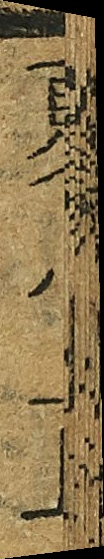夏小正
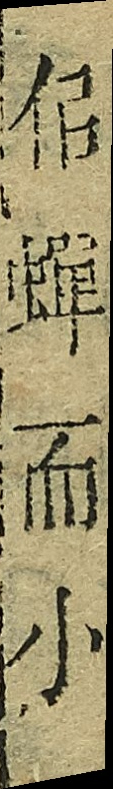佀蝉而小
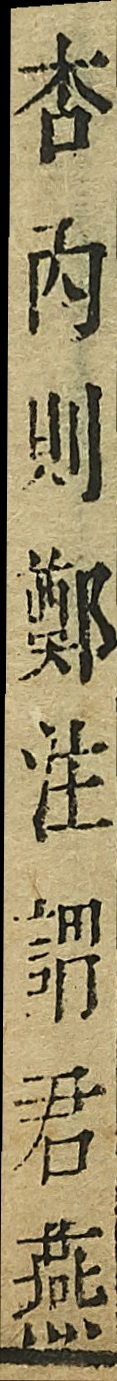杏内则鄭註謂君燕
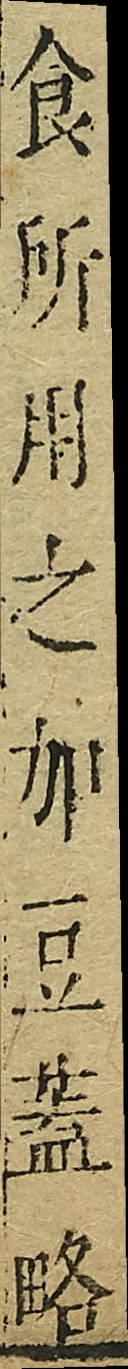食所用之加豆蓋略
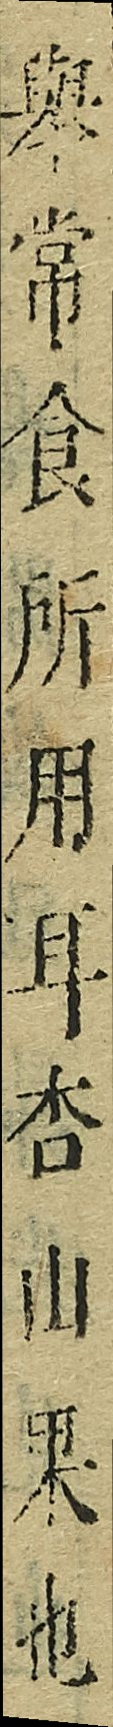舉常食所用耳杏由果也
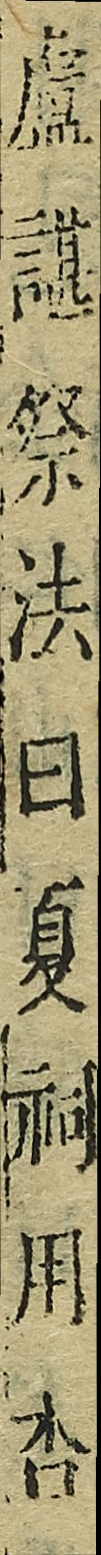盧諶祭法曰夏祠用杏
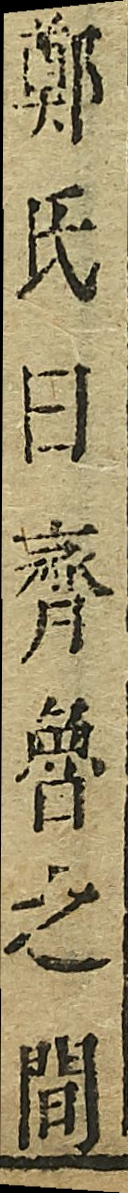鄭氏曰齊魯之間
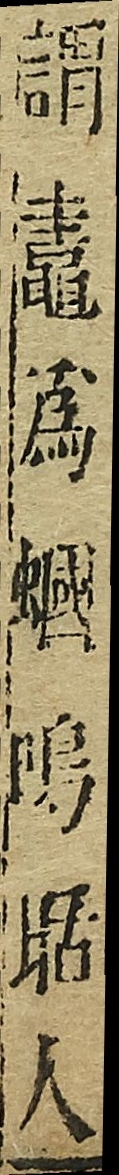謂鼃為蟈鳴聒人
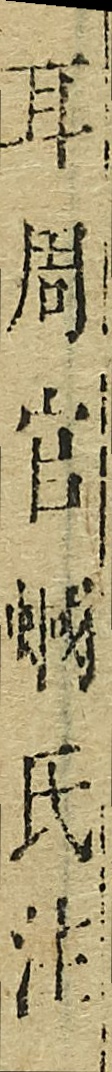耳周官蟈氏注
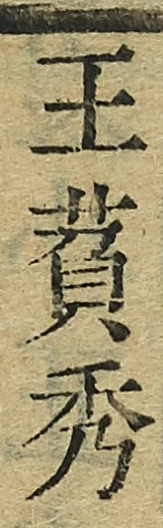王萯秀
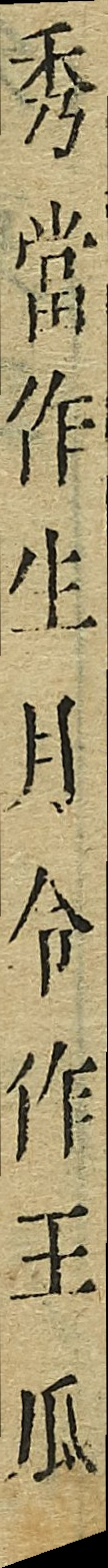秀當作生月令
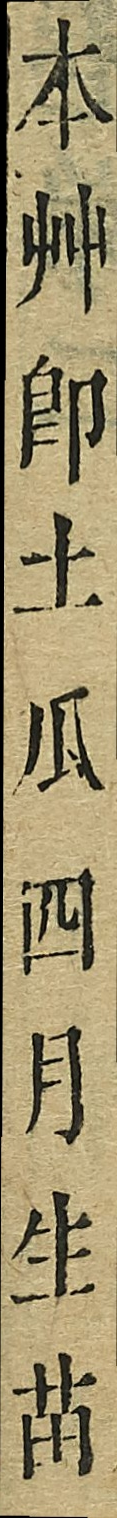本艸即土瓜四月生苗
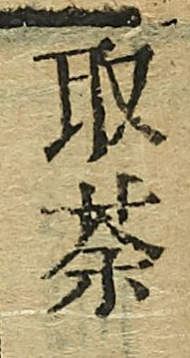取荼
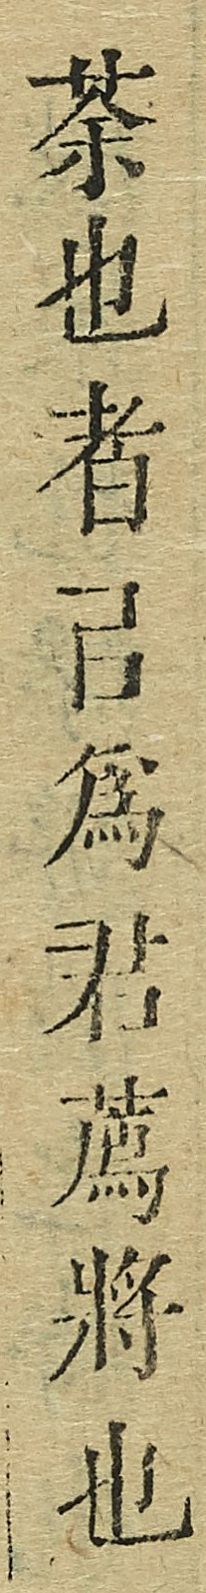荼也者以為君薦將也
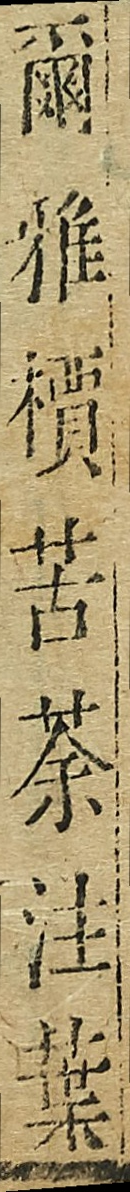爾雅檟苦荼注業
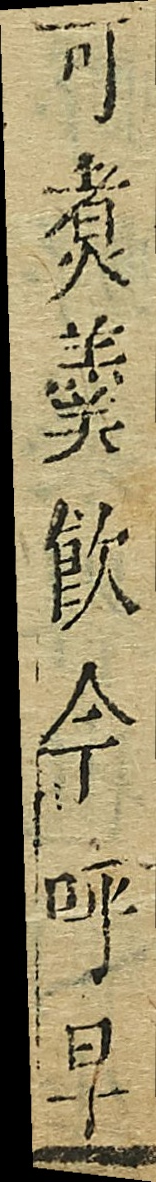可煮羹飲今呼早
